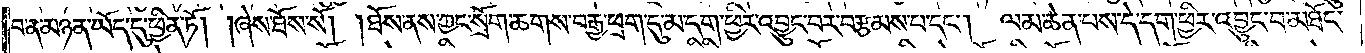བ་ན་མཉན་ཡོད་དུ་ཕྱིན་ཏོ། །ཞེས་ཐོས་སོ། །ཐོས་ནས་ཀྱང་སྲོག་ཆགས་བརྒྱ་ཕྲག་དུ་མ་དག་ཕྱིར་འབྱུང་བར་བརྩམས་པ་དང༌། ལམ་ཆེན་པས་དེ་དག་ཕྱིར་འབྱུང་བ་མཐོང་
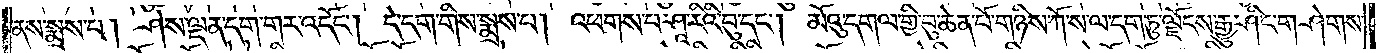ནས་སྨྲས་པ། ཤེས་ལྡན་དག་གར་འདོང༌། དེ་དག་གིས་སྨྲས་པ། འཕགས་པ་ཤཱ་རིའི་བུ་དང༌། མོའུ་དགལ་གྱི་བུ་ཆེན་པོ་གཉིས་ཀོ་ས་ལ་དག་ཏུ་ལྗོངས་རྒྱུ་ཤིང་གཤེགས་
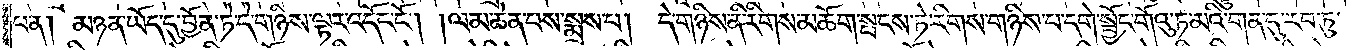པ་ན། མཉན་ཡོད་དུ་བྱོན་ཏེ་དེ་གཉིས་ལྟར་འདོང་ངོ༌། །ལམ་ཆེན་པས་སྨྲས་པ། དེ་གཉིས་ནི་རིགས་མཆོག་སྤངས་ཏེ་རིགས་གཉིས་པ་དགེ་སྦྱོང་གོའུ་ཏ་མའི་གན་དུ་རབ་ཏུ་
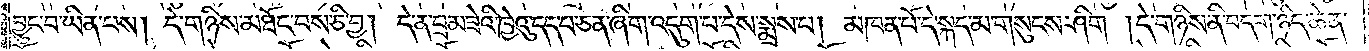བྱུང་བ་ཡིན་པས། དེ་གཉིས་མཐོང་བས་ཅི་བྱ། དེ་ན་བྲམ་ཟེའི་ཁྱེའུ་དད་པ་ཅན་ཞིག་འདུག་པ་དེས་སྨྲས་པ། མཁན་པོ་དེ་སྐད་མ་གསུངས་ཤིག །དེ་གཉིས་ནི་བདག་ཉིད་ཆེན་
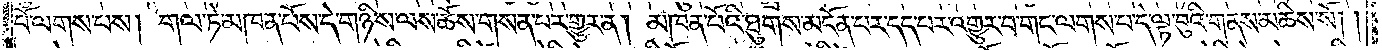པོ་ལགས་པས། གལ་ཏེ་མཁན་པོས་དེ་གཉིས་ལས་ཆོས་གསན་པར་གྱུར་ན། མཁན་པོའི་ཐུགས་མངོན་པར་དད་པར་འགྱུར་བ་གང་ལགས་པ་དེ་ལྟ་བུའི་གནས་མཆིས་སོ། །
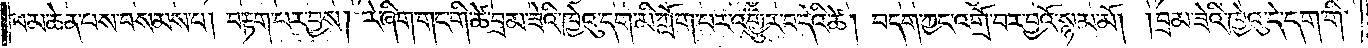ལམ་ཆེན་པས་བསམས་པ། བརྟག་པར་བྱས། རེ་ཞིག་གང་གི་ཚེ་བྲམ་ཟེའི་ཁྱེའུ་དག་མི་ཀློག་པར་འགྱུར་བ་དེའི་ཚེ། བདག་ཀྱང་འགྲོ་བར་བྱའོ་སྙམ་མོ། །བྲམ་ཟེའི་ཁྱེའུ་དེ་དག་གི་
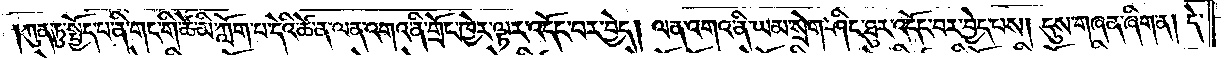ཀུན་ཏུ་སྤྱོད་པ་ནི་གང་གི་ཚེ་མི་ཀློག་པ་དེའི་ཚེ་ན་ལན་འགའ་ནི་གྲོང་ཁྱེར་ལྟར་འདོང་བར་བྱེད། ལན་འགའ་ནི་ཡམ་སྲེག་ཤིང་ཐུར་འདོང་བར་བྱེད་པས། དུས་གཞན་ཞིག་ན། དེ་
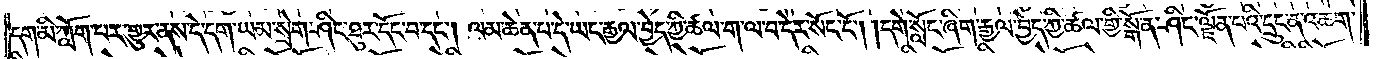དག་མི་ཀློག་པར་གྱུར་ནས་དེ་དག་ཡམ་སྲེག་ཤིང་ཐུར་དོང་བ་དང༌། ལམ་ཆེན་པ་དེ་ཡང་རྒྱལ་བྱེད་ཀྱི་ཚལ་ག་ལ་བ་དེར་སོང་ངོ༌། །དགེ་སློང་ཞིག་རྒྱལ་བྱེད་ཀྱི་ཚལ་གྱི་སྒོ་ན་ཤིང་ལྗོན་པའི་དྲུང་ན་འཆག་
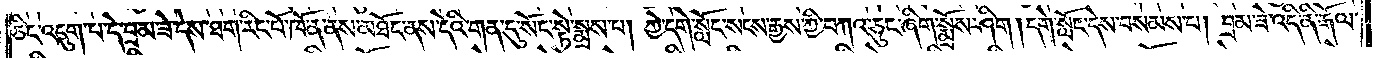ཅིང་འདུག་པ་དེ་བྲམ་ཟེ་དེས་ཐག་རིང་པོ་ཁོ་ན་ནས་མཐོང་ནས་དེའི་གན་དུ་སོང་སྟེ་སྨྲས་པ། ཀྱེ་དགེ་སློང་སངས་རྒྱས་ཀྱི་བཀའ་ཅུང་ཞིག་སྨྲོས་ཤིག །དགེ་སློང་དེས་བསམས་པ། བྲམ་ཟེ་འདི་ནི་རྒོལ་
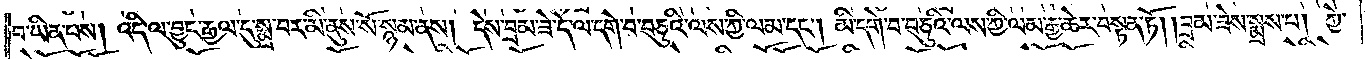བ་ཡིན་པས། འདི་ལ་བྱུང་རྒྱལ་དུ་སྨྲ་བར་མི་ནུས་སོ་སྙམ་ནས། དེས་བྲམ་ཟེ་དེ་ལ་དགེ་བ་བཅུའི་ལས་ཀྱི་ལམ་དང༌། མི་དགེ་བ་བཅུའི་ལས་ཀྱི་ལམ་རྒྱ་ཆེར་བསྟན་ཏོ། །བྲམ་ཟེས་སྨྲས་པ། ཀྱེ་
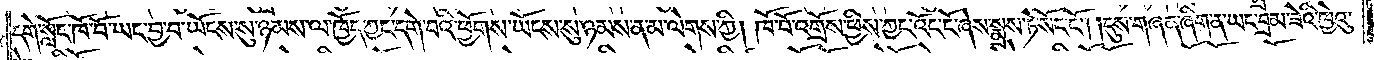དགེ་སློང་ཁོ་བོ་ཡང་བྱ་བ་ཡོངས་སུ་ཉམས་ལ་ཁྱོད་ཀྱང་དགེ་བའི་ཕྱོགས་ཡོངས་སུ་ཉམས་ན་མ་ལེགས་ཀྱི། ཁོ་བོ་འགྲོས་ཕྱིས་ཀྱང་འོང་ངོ་ཞེས་སྨྲས་ཏེ་སོང་ངོ༌། །དུས་གཞན་ཞིག་ན་ཡང་བྲམ་ཟེའི་ཁྱེའུ་
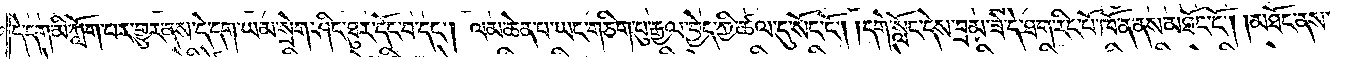དེ་དག་མི་ཀློག་པར་གྱུར་ནས་དེ་དག་ཡམ་སྲེག་ཤིང་ཐུར་དོང་བ་དང༌། ལམ་ཆེན་པ་ཡང་གཅིག་པུ་རྒྱལ་བྱེད་ཀྱི་ཚལ་དུ་སོང་ངོ༌། །དགེ་སློང་དེས་བྲམ་ཟེ་དེ་ཐག་རིང་པོ་ཁོ་ན་ནས་མཐོང་ངོ༌། །མཐོང་ནས་
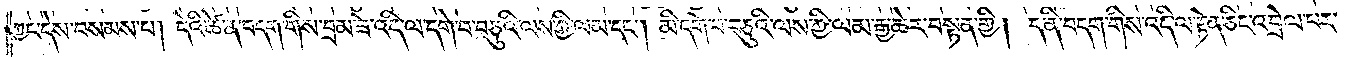ཀྱང་དེས་བསམས་པ། དེའི་ཚེ་ན་བདག་གིས་བྲམ་ཟེ་འདི་ལ་དགེ་བ་བཅུའི་ལས་ཀྱི་ལམ་དང༌། མི་དགེ་བ་བཅུའི་ལས་ཀྱི་ལམ་རྒྱ་ཆེར་བསྟན་གྱི། ད་ནི་བདག་གིས་འདི་ལ་རྟེན་ཅིང་འབྲེལ་པར་
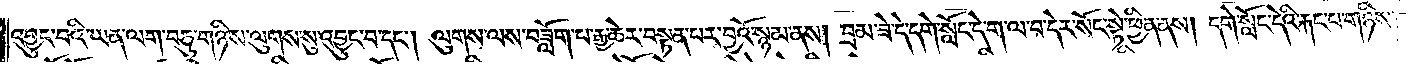འབྱུང་བའི་ཡན་ལག་བཅུ་གཉིས་ལུགས་སུ་འབྱུང་བ་དང༌། ལུགས་ལས་བཟློག་པ་རྒྱ་ཆེར་བསྟན་པར་བྱའོ་སྙམ་ནས། བྲམ་ཟེ་དེ་དགེ་སློང་དེ་ག་ལ་བ་དེར་སོང་སྟེ་བྱིན་ནས། དགེ་སློང་དེའི་རྐང་པ་གཉིས་
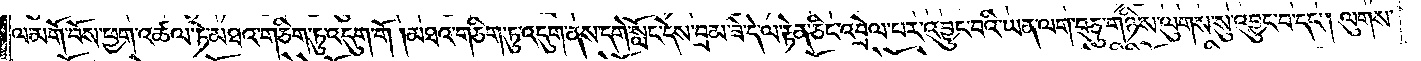ལ་མགོ་བོས་ཕྱག་འཚལ་ཏེ་མཐའ་གཅིག་ཏུ་འདུག་གོ །མཐའ་གཅིག་ཏུ་འདུག་ནས་དགེ་སློང་དེས་བྲམ་ཟེ་དེ་ལ་རྟེན་ཅིང་འབྲེལ་པར་འབྱུང་བའི་ཡན་ལག་བཅུ་གཉིས་ལུགས་སུ་འབྱུང་བ་དང༌། ལུགས་
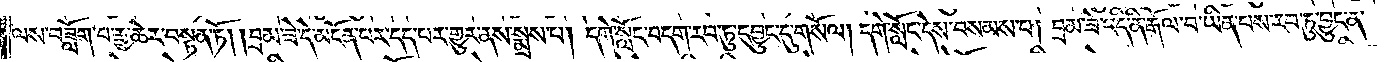ལས་བཟློག་པ་རྒྱ་ཆེར་བསྟན་ཏོ། །བྲམ་ཟེ་དེ་མངོན་པར་དད་པར་གྱུར་ནས་སྨྲས་པ། དགེ་སློང་བདག་རབ་ཏུ་དབྱུང་དུ་གསོལ། དགེ་སློང་དེས་བསམས་པ། བྲམ་ཟེ་འདི་ནི་རྒོལ་བ་ཡིན་པས་རབ་ཏུ་བྱུང་ན་
